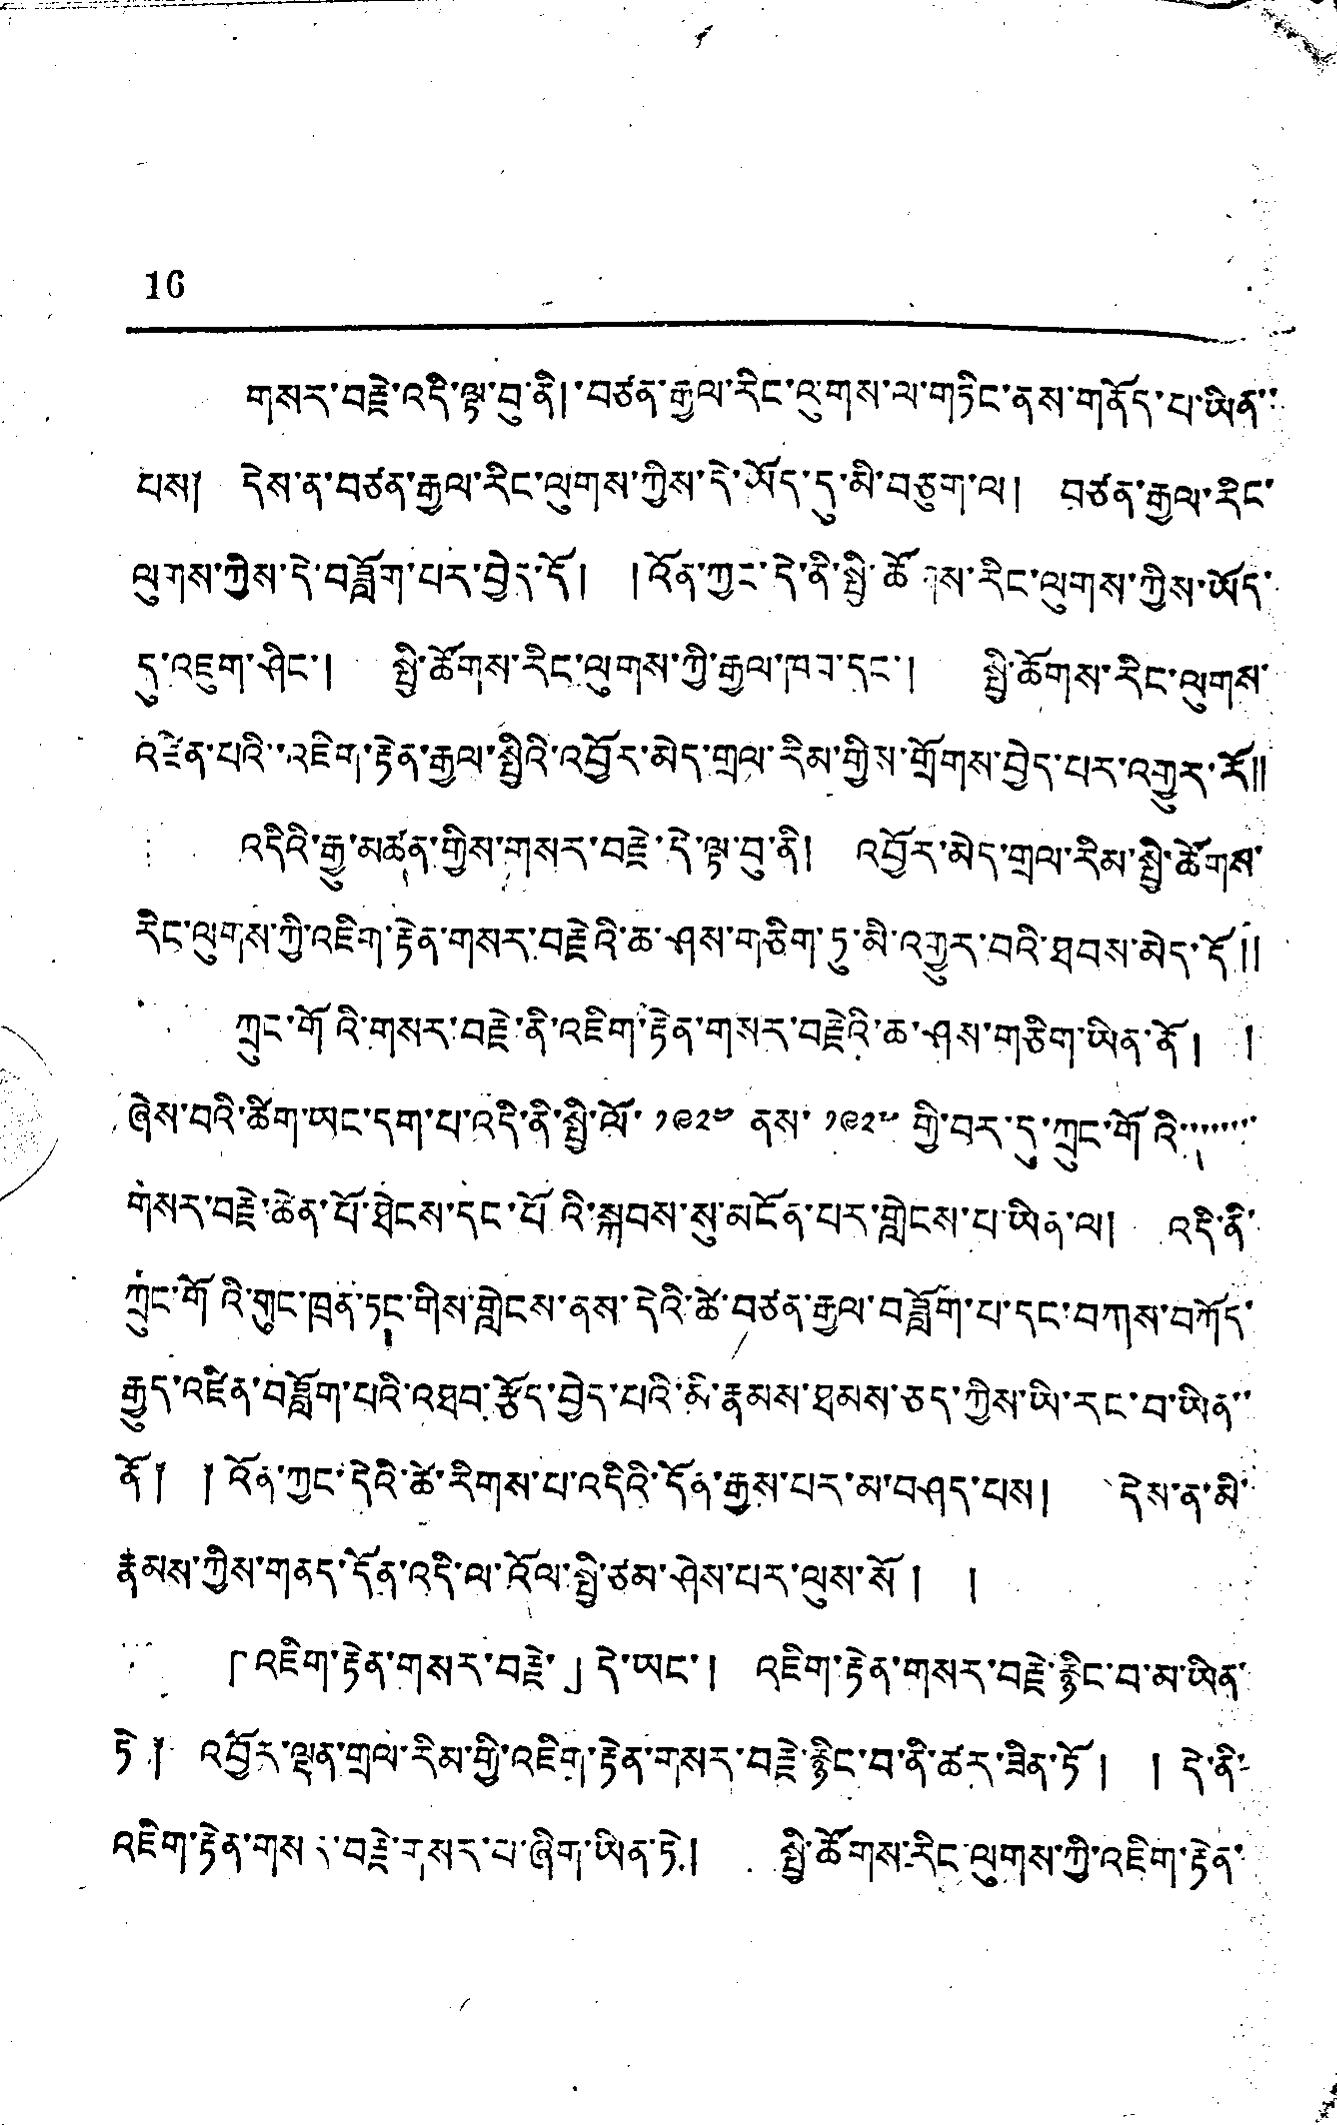16
གསར་བརྗེ་འདི་ལྟ་བུ་ནི། བཙན་རྒྱལ་རིང་ལུགས་ལ་གཏིང་ནས་གནོད་པ་ཡིན་་
པས། དེས་ན་བཙན་རྒྱལ་རིང་ལུསྒ་ཀྱིས་དེ་ཡོད་དུ་མི་བཅུག་ལ། བཙན་རྒྱལ་རིང་
ལུགས་ཀྱིས་དེ་བཟློག་པར་བྱེད་དོ། །འོན་ཀྱང་དེ་ནི་སྤྱི་ཚོགས་རིང་ལུགས་ཀྱིས་ཡོད་
དུ་འཇུག་ཤིང་། སྤྱི་ཚོགས་རིང་ལུགས་ཀྱི་རྒྱལ་ཁབ་དང་། སྤྱི་ཚོགས་རིང་ལུགས་
འཛིན་པའི་འཇིག་རྟེན་རྒྱལ་སྤྱིའི་འབྱོར་མེད་གྲལ་རིམ་གྱིས་གྲོགས་བྱེད་པར་འགྱུར་རོ༎
འདིའི་རྒྱུ་མཚན་གྱིས་གསར་བརྗེ་དེ་ལྟ་བུ་ནི། འབྱོར་མེད་གྲལ་རིམ་སྤྱི་ཚོགས་
རིང་ལུགས་ཀྱི་འཇིག་རྟེན་གསར་བརྗེའི་ཆ་ཤས་གཅིག་ཏུ་མི་འགྱུར་བའི་ཐབས་མེད་དོ༎
ཀྲུང་གོའི་གསར་བརྗེ་ནི་འཇིག་རྟེན་གསར་བརྗེའི་ཆ་ཤས་གཅིག་ཡིན་ནོ། །
ཞེས་བའི་ཚིག་ཡང་དག་པ་འདི་ནི་སྤྱི་ལོ་ ༡༩༢༤ ནས་ ༡༩༢༧ གྱི་བར་དུ་ཀྲུང་གོའི་་་་་་་་
གསར་བརྗེ་ཆེན་པོ་ཐེངས་དང་པོའི་སྐབས་སུ་མངོན་པར་གླེངས་པ་ཡིན་ལ། འདི་ནི་
ཀྲུང་གོའི་གུང་ཁྲན་ཏང་གིས་གླེངས་ནས་དེའི་ཚེ་བཙན་རྒྱལ་བཟློག་པ་དང་བཀས་བཀོད་
རྒྱུད་འཛིན་བཟློག་པའི་འཐབ་རྩོད་བྱེད་པའི་མི་རྣམས་ཐམས་ཅད་ཀྱིས་ཡི་རང་བ་ཡིན་་
ནོ༐ ༐ འོན་ཀྱང་དེའི་ཚེ་རིགས་པ་འདིའི་དོན་རྒྱས་པར་མ་བཤད་པས། དེས་ན་མི་
རྣམས་ཀྱིས་གནད་དོན་འདི་ལ་འོལ་སྤྱི་ཙམ་ཤེས་པར་ལུས་སོ ། །
「འཇིག་རྟེན་གསར་བརྗེ་」དེ་ཡང་། འཇིག་རྟེན་གསར་བརྗེ་རྙིང་བ་མ་ཡིན་
ཏེ ༐ འབྱོར་ལྡན་གྲལ་རིམ་གྱི་འཇིག་རྟེན་གསར་བརྗེ་རྙིང་བ་ནི་ཚར་ཟིན་ཏོ ། ། དེ་ནི་
འཇིག་རྟེན་གསར་བརྗེ་གསར་པ་ཞིག་ཡིན་ཏེ། སྤྱི་ཚོགས་རིང་ལུགས་ཀྱི་འཇིག་རྟེན་
